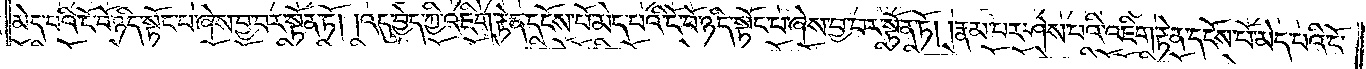མེད་པའི་ངོ་བོ་ཉིད་སྟོང་པ་ཞེས་བྱ་བར་སྟོན་ཏོ། །འདུ་བྱེད་ཀྱི་འཇིག་རྟེན་དངོས་པོ་མེད་པའི་ངོ་བོ་ཉིད་སྟོང་པ་ཞེས་བྱ་བར་སྟོན་ཏོ། །རྣམ་པར་ཤེས་པའི་འཇིག་རྟེན་དངོས་པོ་མེད་པའི་ངོ་
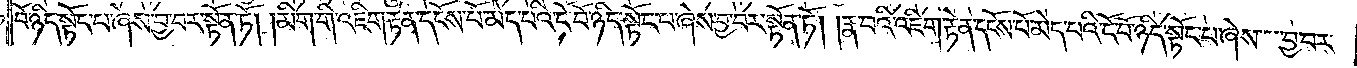བོ་ཉིད་སྟོང་པ་ཞེས་བྱ་བར་སྟོན་ཏོ། །མིག་གི་འཇིག་རྟེན་དངོས་པོ་མེད་པའི་ངོ་བོ་ཉིད་སྟོང་པ་ཞེས་བྱ་བར་སྟོན་ཏོ། །རྣ་བའི་འཇིག་རྟེན་དངོས་པོ་མེད་པའི་ངོ་བོ་ཉིད་སྟོང་པ་ཞེས་བྱ་བར་
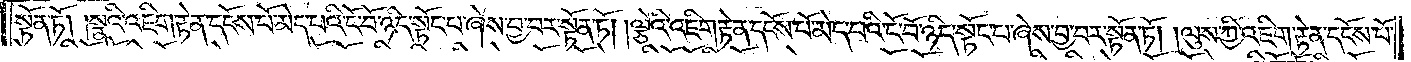སྟོན་ཏོ། །སྣའི་འཇིག་རྟེན་དངོས་པོ་མེད་པའི་ངོ་བོ་ཉིད་སྟོང་པ་ཞེས་བྱ་བར་སྟོན་ཏོ། །ལྕེའི་འཇིག་རྟེན་དངོས་པོ་མེད་པའི་ངོ་བོ་ཉིད་སྟོང་པ་ཞེས་བྱ་བར་སྟོན་ཏོ། །ལུས་ཀྱི་འཇིག་རྟེན་དངོས་པོ་
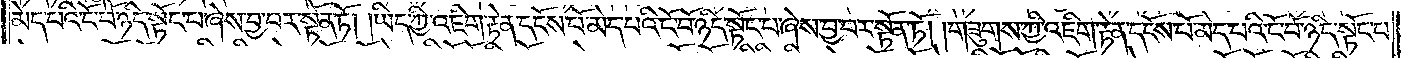མེད་པའི་ངོ་བོ་ཉིད་སྟོང་པ་ཞེས་བྱ་བར་སྟོན་ཏོ། །ཡིད་ཀྱི་འཇིག་རྟེན་དངོས་པོ་མེད་པའི་ངོ་བོ་ཉིད་སྟོན་པ་ཞེས་བྱ་བར་སྟོན་ཏོ། །གཟུགས་ཀྱི་འཇིག་རྟེན་དངོས་པོ་མེད་པའི་ངོ་བོ་ཉིད་སྟོང་པ་
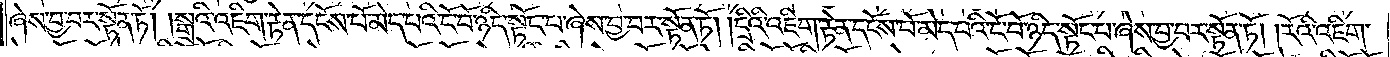ཞེས་བྱ་བར་སྟོན་ཏོ། །སྒྲའི་འཇིག་རྟེན་དངོས་པོ་མེད་པའི་ངོ་བོ་ཉིད་སྟོང་པ་ཞེས་བྱ་བར་སྟོན་ཏོ། །དྲིའི་འཇིག་རྟེན་དངོས་པོ་མེད་པའི་ངོ་བོ་ཉིད་སྟོང་པ་ཞེས་བྱ་བར་སྟོན་ཏོ། །རོའི་འཇིག་
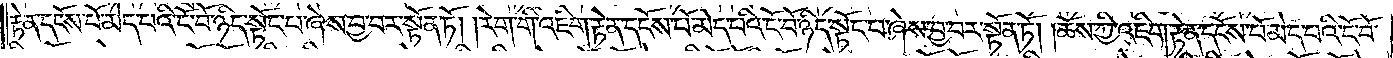རྟེན་དངོས་པོ་མེད་པའི་ངོ་བོ་ཉིད་སྟོང་པ་ཞེས་བྱ་བར་སྟོན་ཏོ། །རེག་གི་འཇིག་རྟེན་དངོས་པོ་མེད་པའི་ངོ་བོ་ཉིད་སྟོང་པ་ཞེས་བྱ་བར་སྟོན་ཏོ། །ཆོས་ཀྱི་འཇིག་རྟེན་དངོས་པོ་མེད་པའི་ངོ་བོ་
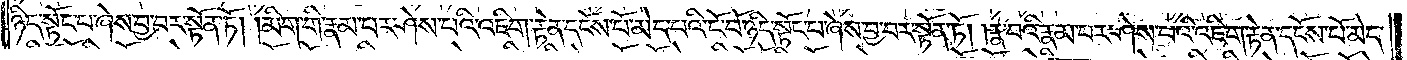ཉིད་སྟོང་པ་ཞེས་བྱ་བར་སྟོན་ཏོ། །མིག་གི་རྣམ་པར་ཤེས་པའི་འཇིག་རྟེན་དངོས་པོ་མེད་པའི་ངོ་བོ་ཉིད་སྟོན་པ་ཞེས་བྱ་བར་སྟོན་ཏོ། །རྣ་བའི་རྣམ་པར་ཤེས་པའི་འཇིག་རྟེན་དངོས་པོ་མེད་
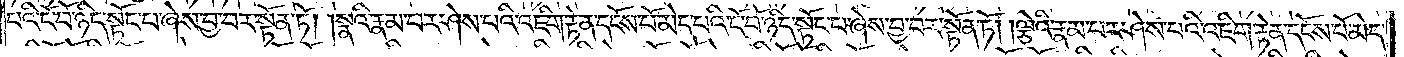པའི་ངོ་བོ་ཉིད་སྟོང་པ་ཞེས་བྱ་བར་སྟོན་ཏོ། །སྣའི་རྣམ་པར་ཤེས་པའི་འཇིག་རྟེན་དངོས་པོ་མེད་པའི་ངོ་བོ་ཉིད་སྟོང་པ་ཞེས་བྱ་བར་སྟོན་ཏོ། །ལྕེའི་རྣམ་པར་ཤེས་པའི་འཇིག་རྟེན་དངོས་པོ་མེད་
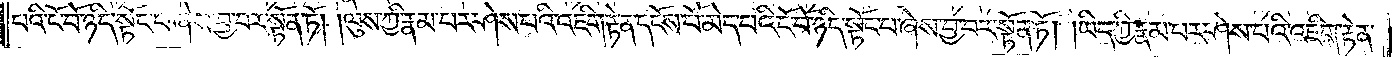པའི་ངོ་བོ་ཉིད་སྟོང་པ་ཞེས་བྱ་བར་སྟོན་ཏོ། །ལུས་ཀྱི་རྣམ་པར་ཤེས་པའི་འཇིག་རྟེན་དངོས་པོ་མེད་པའི་ངོ་བོ་ཉིད་སྟོང་པ་ཞེས་བྱ་བར་སྟོན་ཏོ། །ཡིད་ཀྱི་རྣམ་པར་ཤེས་པའི་འཇིག་རྟེན་
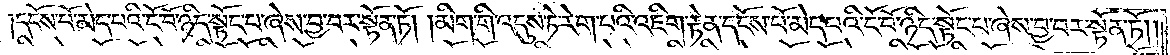དངོས་པོ་མེད་པའི་ངོ་བོ་ཉིད་སྟོང་པ་ཞེས་བྱ་བར་སྟོན་ཏོ། །མིག་གི་འདུས་ཏེ་རེག་པའི་འཇིག་རྟེན་དངོས་པོ་མེད་པའི་ངོ་བོ་ཉིད་སྟོང་པ་ཞེས་བྱ་བར་སྟོན་ཏོ། །
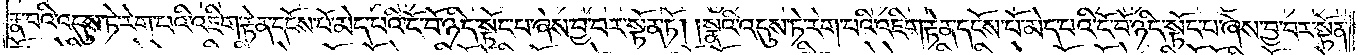རྣ་བའི་འདུས་ཏེ་རེག་པའི་འཇིག་རྟེན་དངོས་པོ་མེད་པའི་ངོ་བོ་ཉིད་སྟོང་པ་ཞེས་བྱ་བར་སྟོན་ཏོ། །སྣའི་འདུས་ཏེ་རེག་པའི་འཇིག་རྟེན་དངོས་པོ་མེད་པའི་ངོ་བོ་ཉིད་སྟོང་པ་ཞེས་བྱ་བར་སྟོན་
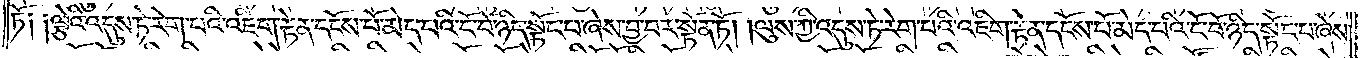ཏོ༑ ༑ལྕེའི་འདུས་ཏེ་རེག་པའི་འཇིག་རྟེན་དངོས་པོ་མེད་པའི་ངོ་བོ་ཉིད་སྟོང་པ་ཞེས་བྱ་བར་སྟོན་ཏོ། །ལུས་ཀྱི་འདུས་ཏེ་རེག་པའི་འཇིག་རྟེན་དངོས་པོ་མེད་པའི་ངོ་བོ་ཉིད་སྟོང་པ་ཞེས་
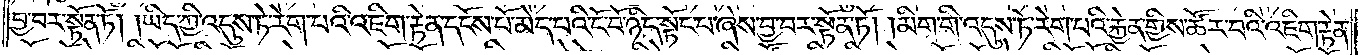བྱ་བར་སྟོན་ཏོ། །ཡིད་ཀྱི་འདུས་ཏེ་རེག་པའི་འཇིག་རྟེན་དངོས་པོ་མེད་པའི་ངོ་བོ་ཉིད་སྟོང་པ་ཞེས་བྱ་བར་སྟོན་ཏོ། །མིག་གི་འདུས་ཏེ་རེག་པའི་རྐྱེན་གྱིས་ཚོར་བའི་འཇིག་རྟེན་
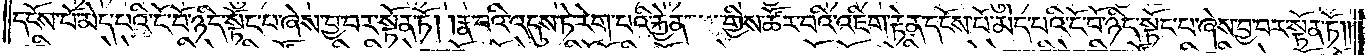དངོས་པོ་མེད་པའི་ངོ་བོ་ཉིད་སྟོང་པ་ཞེས་བྱ་བར་སྟོན་ཏོ། །རྣ་བའི་འདུས་ཏེ་རེག་པའི་རྐྱེན་གྱིས་ཚོར་བའི་འཇིག་རྟེན་དངོས་པོ་མེད་པའི་ངོ་བོ་ཉིད་སྟོང་པ་ཞེས་བྱ་བར་སྟོན་ཏོ། །
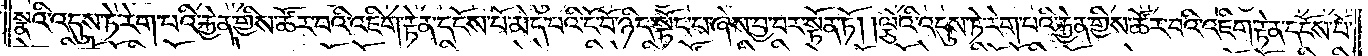སྣའི་འདུས་ཏེ་རེག་པའི་རྐྱེན་གྱིས་ཚོར་བའི་འཇིག་རྟེན་དངོས་པོ་མེད་པའི་ངོ་བོ་ཉིད་སྟོང་པ་ཞེས་བྱ་བར་སྟོན་ཏོ། །ལྕེའི་འདུས་ཏེ་རེག་པའི་རྐྱེན་གྱིས་ཚོར་བའི་འཇིག་རྟེན་དངོས་པོ་
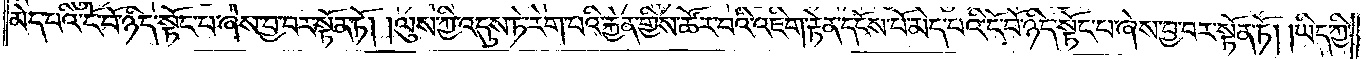མེད་པའི་ངོ་བོ་ཉིད་སྟོང་པ་ཞེས་བྱ་བར་སྟོན་ཏོ། །ལུས་ཀྱི་འདུས་ཏེ་རེག་པའི་རྐྱེན་གྱིས་ཚོར་བའི་འཇིག་རྟེན་དངོས་པོ་མེད་པའི་ངོ་བོ་ཉིད་སྟོང་པ་ཞེས་བྱ་བར་སྟོན་ཏོ། །ཡིད་ཀྱི་
